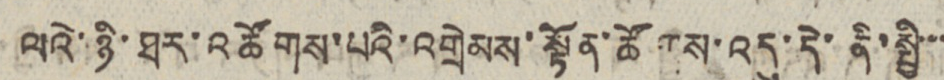ལའེ་ཉི་ཐར་འཚོགས་པའི་འགྲེམས་སྟོན་ཚོགས་འདུ་དེ་ནི་སྤྱི་་་
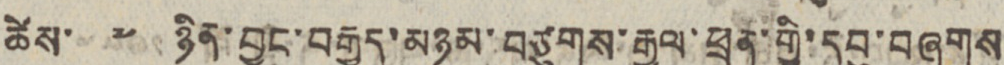ཚེས་ ༧ ཉིན་བྱང་བརྒྱུད་མཉམ་བཙུགས་རྒྱལ་ཕྲན་གྱི་དབུ་བཞུགས
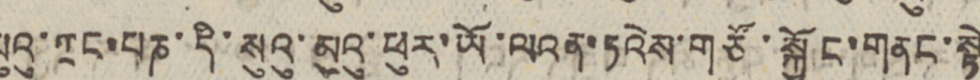པུའུ་ཀྲང་པཎ་དི་སུའུ་མུའུ་ཕུར་ཡོ་ལའན་ཏའེས་གཙོ་སྐྱོང་གནང་སྟེ
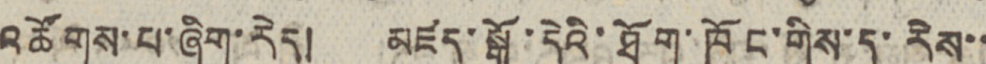འཚོགས་པ་ཞིག་རེད། མཛད་སྒོ་དེའི་ཐོག་ཁོང་གིས་ད་རེས་་
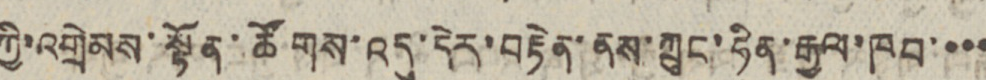ཀྱི་འགྲེམས་སྟོན་ཚོགས་འདུ་དེར་བརྟེན་ནས་ཀྲུང་ཧིན་རྒྱལ་ཁབ་་་་
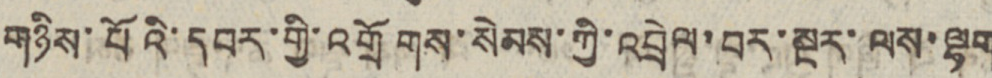གཉིས་པོའི་དབར་གྱི་འགྲོགས་སེམས་ཀྱི་འབྲེལ་བར་སྔར་ལས་ལྷག
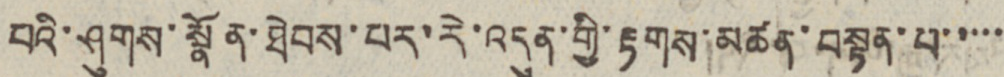པའི་ཤུགས་སྣོན་ཐེབས་པར་རེ་འདུན་གྱི་རྟགས་མཚན་བསྟན་པ་་་་་
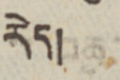རེད།
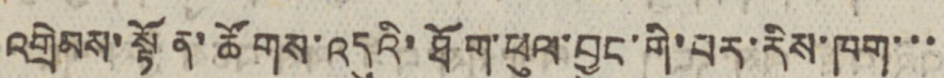འགྲེམས་སྟོན་ཚོགས་འདུའི་ཐོག་ཕུལ་བྱུང་གི་པར་རིས་ཁག་་་
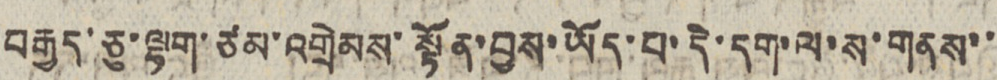བརྒྱད་ཅུ་ལྷག་ཙམ་འགྲེམས་སྟོན་བྱས་ཡོད་པ་དེ་དག་ལ་ས་གནས་་
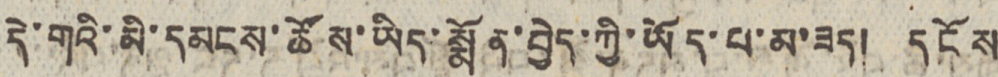དེ་གའི་མི་དམངས་ཚོས་ཡིད་སྨོན་བྱེད་ཀྱི་ཡོད་པ་མ་ཟད། དངོས
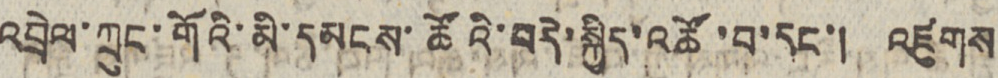འབྲེལ་ཀྲུང་གོའི་མི་དམངས་ཚོའི་བདེ་སྐྱིད་འཚོ་བ་དང་། འཛུགས
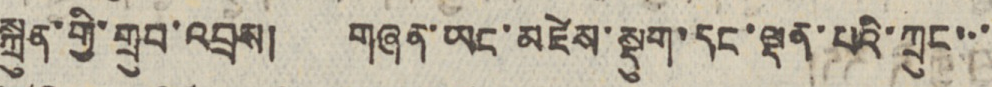སྐྲུན་གྱི་གྲུབ་འབྲས། གཞན་ཡང་མཛེས་སྡུག་དང་ལྡན་པའི་ཀྲུང་་་
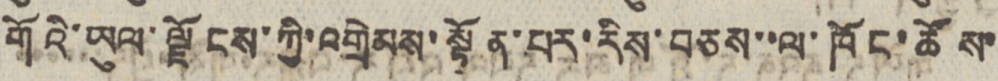གོའི་ཡུལ་ལྗོངས་ཀྱི་འགྲེམས་སྟོན་པར་རིས་བཅས་་ལ་ཁོང་ཚོས་
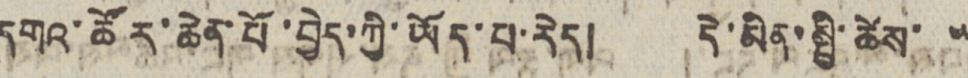དགའ་ཚོར་ཆེན་པོ་བྱེད་ཀྱི་ཡོད་པ་རེད། དེ་མིན་སྤྱི་ཚེས་ ༥
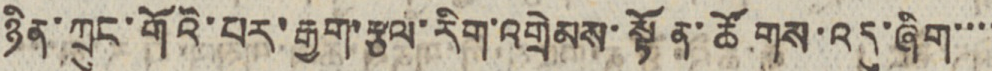ཉིན་ཀྲུང་གོའི་པར་རྒྱག་རྩལ་རིག་འགྲེམས་སྟོན་ཚོགས་འདུ་ཞིག་་་་
